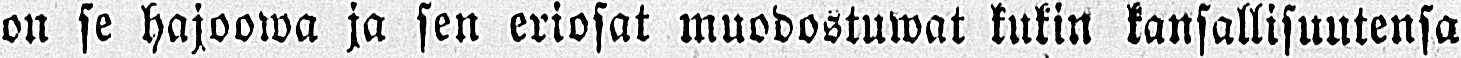on se hajoowa ja sen eriosat muodostuwat kukin kansallisuutensa
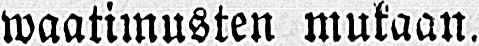waatimusten mukaan.
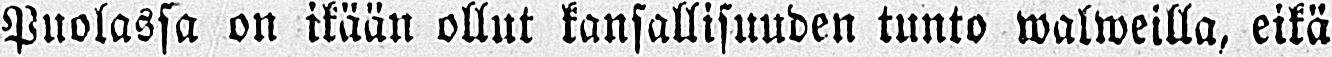Puolassa on ikään ollut kansallisuuden tunto walweilla, eikä
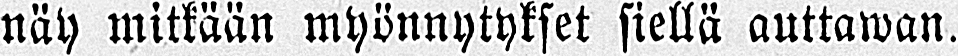näy mitkään myönnytykset siellä auttawan.
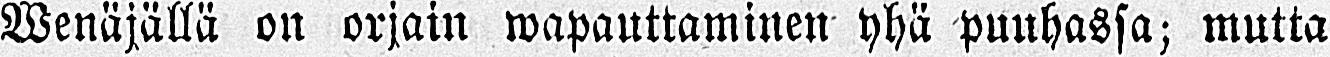Wenäjällä on orjain wapauttaminen yhä puuhassa; mutta
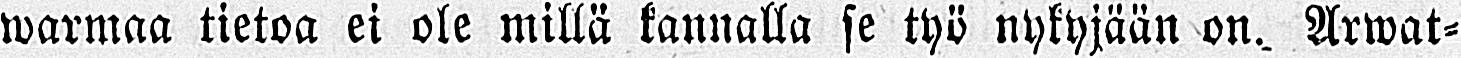warmaa tietoa ei ole millä kannalla se työ nykyjään on. Arwat-
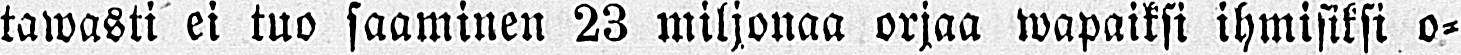tawasti ei tuo saaminen 23 miljonaa orjaa wapaiksi ihmisiksi o-
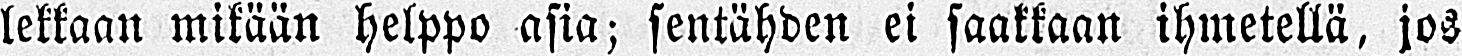lekkaan mikään helppo asia; sentähden ei saakkaan ihmetellä, jos
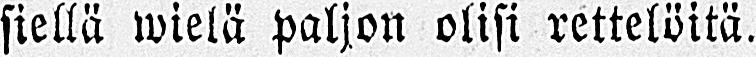siellä wielä paljon olisi rettelöitä.
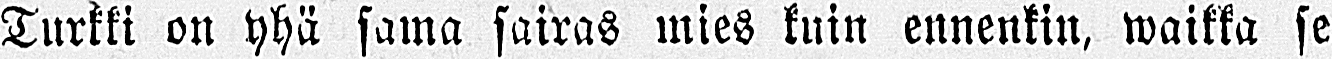Turkki on yhä sama sairas mies kuin ennenkin, waikka se
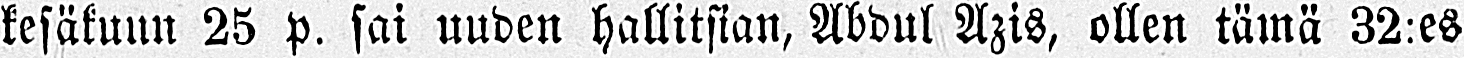kesäkuun 25 p. sai uuden hallitsian, Abdul Azis, ollen tämä 32:es
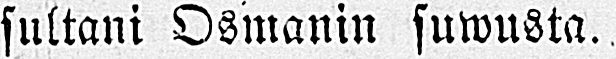sultani Osmanin suwusta.
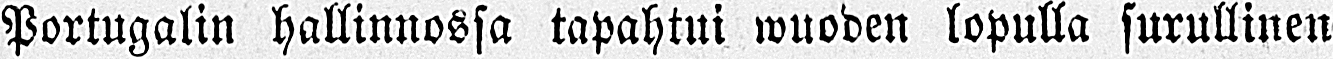Portugalin hallinnossa tapahtui wuoden lopulla surullinen
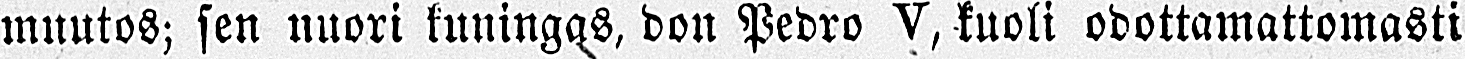muutos; sen nuori kuningas, don Pedro V, kuoli odottamattomasti
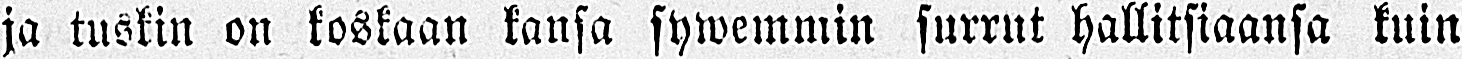ja tuskin on koskaan kansa sywemmin surrut hallitsiaansa kuin
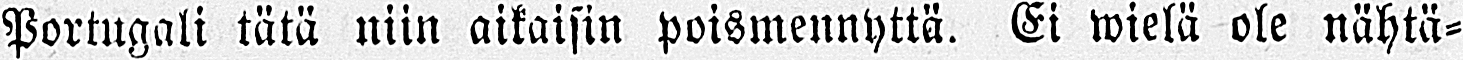Portugali tätä niin aikaisin poismennyttä. Ei wielä ole nähtä-
